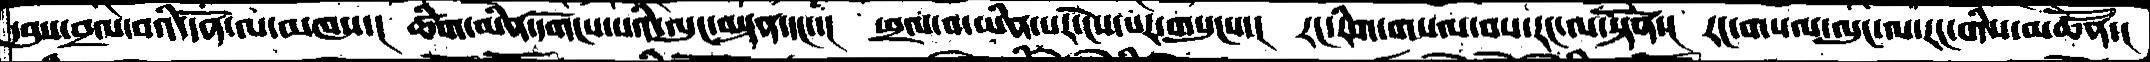དབུས་བྲལ་བའི་དོན་ལ་མཁས་།  ཚིག་མིན་དགོངས་པའི་ལུང་བསྟན་དང་་།  ཕྲལ་བ་ཡིན་པར་ངེས་པར་གསུངས་།  རང་རིག་གསལ་བས་རང་ལ་སྟོན་།  རང་གསལ་ལུང་ལ་རང་གིས་མཚོན་།
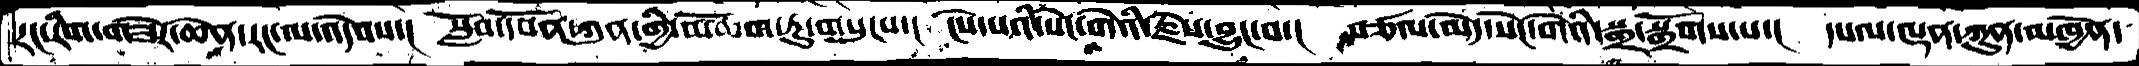རང་རིག་གཟེར་ཆེན་རང་ལ་འདེབས་།  སློབ་དཔོན་ཀུན་གྱི་མཆོག་ཏུ་གསུངས་།  ངེས་པའི་སེང་གེའི་རྗེས་བྱུང་བ་།  བཙལ་མེད་སེང་གེའི་སྒྲ་སྒྲོགས་པ་།  དཔལ་ལྡན་ཀུན་མཁྱེན་
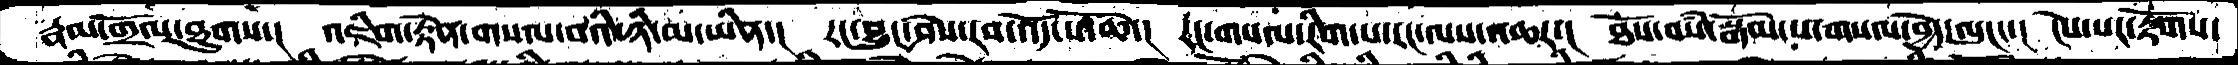རྣམ་གྲོལ་ཐུགས་།  འཇིག་རྟེན་གསལ་བའི་ཉི་མ་ཡིན་།  རང་བྱུང་ཤེས་རབ་འོད་པོ་ཆེ་།  རང་གསལ་རིག་པ་རང་ལས་འཆར་།  ཐོས་བསཾ་སྒོམ་པ་གསལ་བྱེད་ལུང་་།  ངེས་པར་རྟོགས་
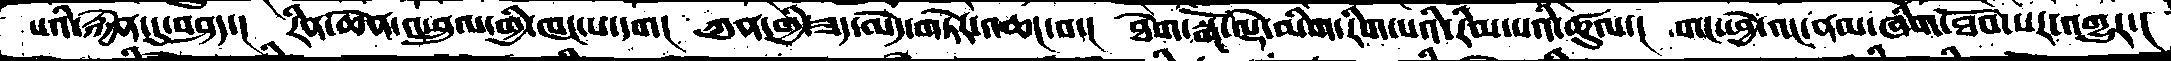པའི་རྐྱེན་དུ་བཤད་།  རིན་ཆེན་འཕྲུལ་གྱི་ཁང་པ་དག།  ཀུན་གྱི་ཟད་མེད་གཏེར་འཆང་བ་།  ཐེག་སྒོ་ལྡེ་མིག་རིག་པའི་རིམ་པའི་ཚུལ་།  གང་ཕྱེ་འང་ནམ་ཞིག་ཐོབ་པར་འགྱུར་།
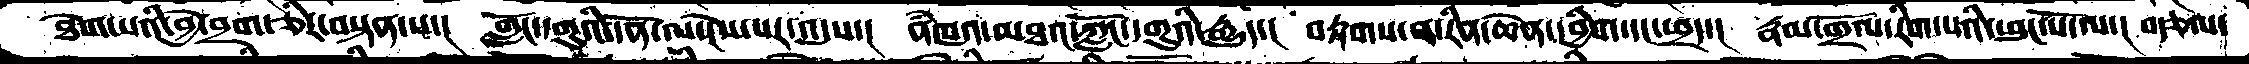ཐེག་པའི་བྱེ་བྲག་ཅིར་བསྟན་པ་།  གློང་དགུའི་དོན་ལ་ངེས་པར་འདུས་།  ནཾཁའ་མཐའ་ཀློང་དགུའི་རྒྱུད་།  བརྟགས་ན་རིན་ཆེན་དབྱིག་དང་ཕྲད་།  རྣམ་གྲོལ་རིག་པའི་ཕུང་པོ་ལ་།  བརྩལ་
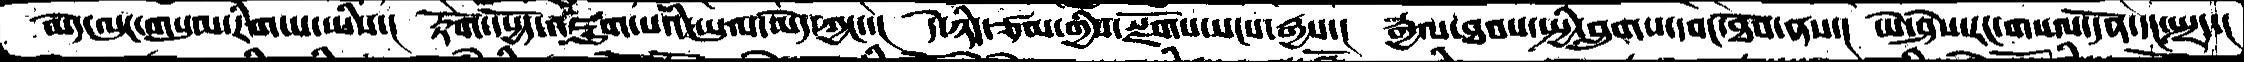མེད་ལུང་གསུམ་རིག་པ་ཡིས་།  རྟོག་དཔྱོད་འཇུག་པའི་ཡུལ་མེད་ཀྱང་་།   དེ་ཉིད་ཙམ་གྱིས་སྫོགས་སངས་རྒྱས་།  རྒྱལ་ཐབས་སྤྱི་བླུགས་དབང་ཐོབ་ནས་།  ཡེ་ཤེས་རང་གསལ་དོན་དང་སྤྲད་།
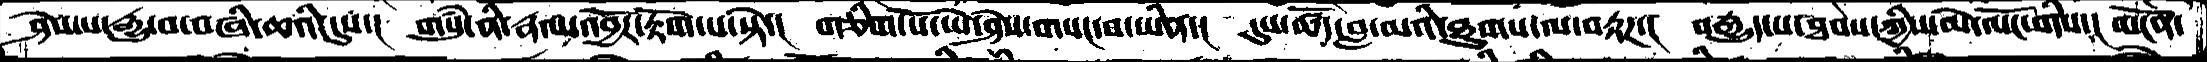ཤེས་པ་རྒྱུ་བ་བཞི་ཆའི་དུས་།  གསུཾ་ནི་རྣལ་འབྱོར་རྟོག་པ་སྟེ་།  གཅིག་པོ་ཡེ་ཤེས་གསང་བ་ཡིན་།  དུས་ཚོད་བླ་མའི་ཐུགས་ལ་བརྟཌ་།  བརྒྱུད་པ་ཐབས་ཀྱིས་མེ་ལོང་གིས་།  མངོན་
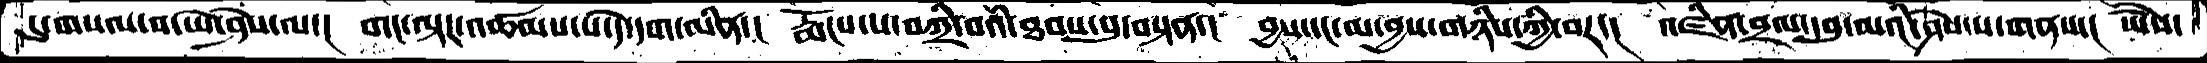དུ་གསལ་བ་ཡེ་ཤེས་ལ་།  གང་ལྟར་འཚམས་པ་དེ་དག་མིན་།  རྨོངས་པ་བཀྲི་བའི་ཐབས་སུ་བསྟན་།  བྱས་དང་མ་བྱས་གཉིས་ཀྱི་བར་།  འཛིན་བྲལ་དབུ་མའི་ཤེས་པ་གནས་།  ཡཻས་
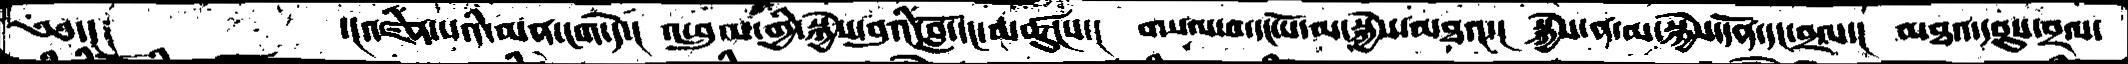༄༅་།         ་།འཛིན་པའི་མན་ངག་དེ་།  འཕྲུལ་གྱི་སྐྱེས་བུའི་བློ་དང་མཚུངས་།  གསལ་བ་དང་པོ་མ་སྐྱེས་མཐའ་།  སྐྱེ་ན་མ་སྐྱེས་དོན་དང་བྲལ་།  མཐའ་དབུས་བྲལ་
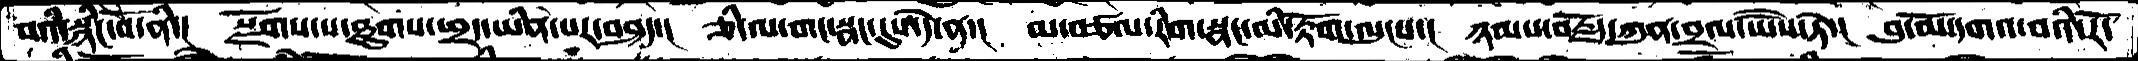བའི་སྙིང་པོ་ནི་།  སྫོགས་པ་ཐུགས་ཕྲད་ཡིན་པར་བཤད་།  ཅི་ལ་གང་སྣང་དུས་དེ་ན་།  མ་བཙལ་རིག་སྣང་མི་རྟོག་ལུངས་།  ཉམས་བརྗོད་ཀུན་བྲལ་ཡཻས་ཏེ་།  བུ་མོ་དགའ་བའི་རོ་
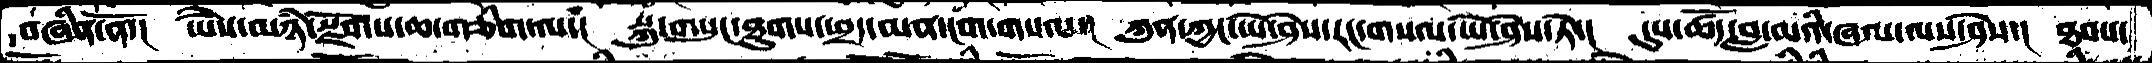བཞིན་ནོ་།  ཡཻས་མཉཾ་སྫོགས་ཆ་གཅིག་ལ་།  སྐུ་གསུང་ཐུགས་ཕྲད་མན་ངག་གསལ་།  ཀུན་ཀྱང་ཡེ་ཤེས་རང་གསལ་ཡེ་ཤེས་ཏེ་།  དུས་ཚོད་བླ་མའི་ཞལ་ལས་ཤེས་།  ཐབས་
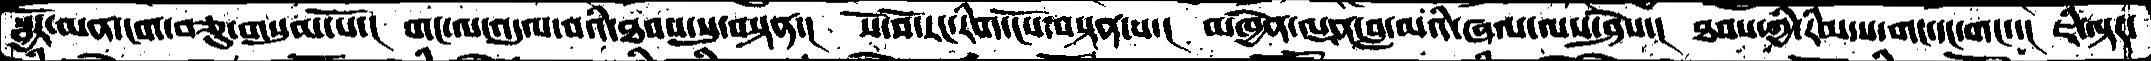སྦྱོར་མན་ངག་བཅུ་གསུམ་པོ་།  གང་ལ་འདུལ་བའི་ཐབས་སུ་བསྟན་།  སོ་སོ་རང་རིག་ངེས་བསྟན་པ་།  མཁྱེན་ལྡན་བླ་མའི་ཞལ་ལས་ཤེས་་།  ཐབས་ཀྱི་རིམ་པ་གང་དང་གང་་།  ཇི་ལྟར་
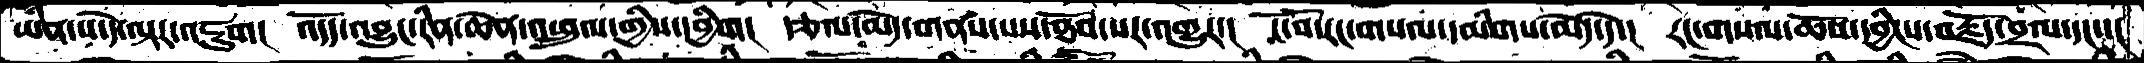ཡིན་པ་དེ་ལྟར་འཇུག།  འདོད་འབྱུང་རིན་ཆེན་འཕྲུལ་གྱིས་དབྱིག།  རྩལ་མེད་གནས་པས་ཐོབ་པར་འགྱུར་།  ངོ་བོ་རང་གསལ་དམིགས་མེད་དེ་།  རང་གསལ་ཆོས་དབྱིངས་བརྗོད་བྲལ་དང་་།
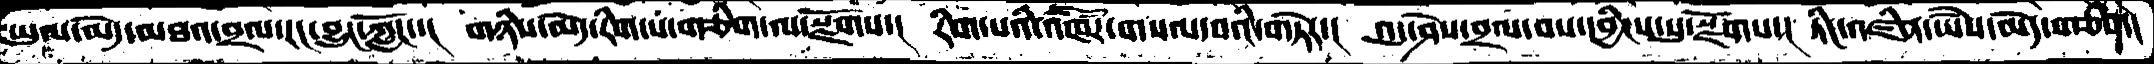ཡུལ་མེད་མཐའ་བྲལ་རང་བྱུང་ཀློང་་།  གཉིས་མེད་རིག་པ་གཅིག་ལ་སྫོགས་།  རིག་པའི་འཁཽར་གསལ་བའི་གཏེར་།  འདུ་ཤེས་བྲལ་བས་དབྱིངས་སུ་སྫོགས་།  ཏིང་འཛིན་ཡཻས་མེད་པ་ཅིག།
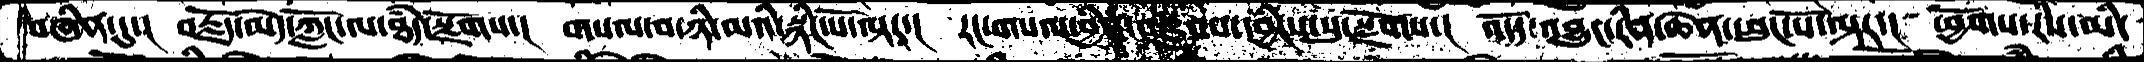བཞིན་དུ་།  བརྗོད་མེད་ཀློང་ལ་ཐཾད་རྫོགས་།  གསལ་བ་ཉི་མའི་སྙིང་པ་ོལྟར་། རང་གསལ་བྱིན་བརླབས་དབྱིངས་སུ་སྫོགས་།  འདོད་འབྱུང་རིན་ཆེན་ཕུང་པོ་ལྟར་། ཕྱོགས་རིས་མི་
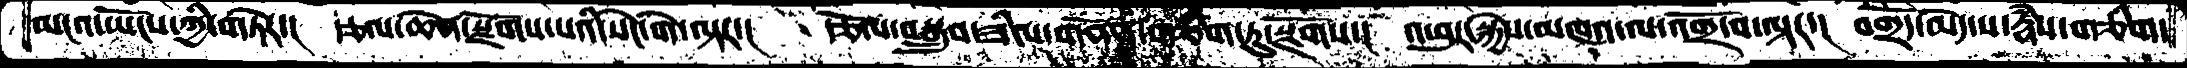མངའ་ཡོངས་ཀྱི་གཏེར་།  རྩལ་ཆེན་སྫོགས་པའི་སེང་གེ་ལྟར་།  རྩོལ་བསྒྲུབ་ཟིལ་གནོན་གཅིག་ཏུ་སྫོགས་།  འཕུར་སྐྱེས་མཁའ་ལ་འགྲོ་བ་ལྟར་།  བགྲོད་མེད་པ་རྣཾས་གཅིག་
